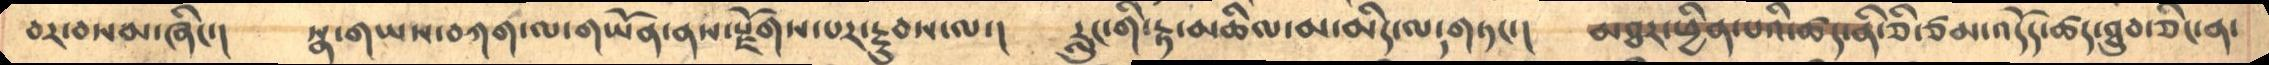བར་བསམ་ཞིང་།     སྣ་གཡས་བཀག་ལ་གཡོན་ནས་རྫོགས་པར་རྔུབས་ལ་།    རླུང་གི་རྟ་མཆིལ་མ་མིད་ལ་གཏང་།    མཐར་ཕྱིན་པའི་ཚད་ནི་ཅི་ཙམ་འདོད་ཚད་ཐུབ་ཅིང་ན་
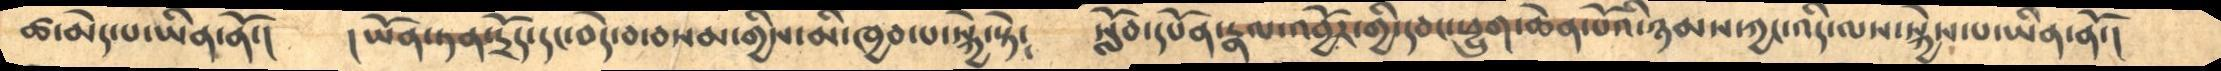ཚ་མེད་པ་ཡིན་ནོ་།     །ཡོན་ཏན་དྲོད་དང་བདེ་བ་བསམ་གྱིས་མི་ཁྱབ་པ་སྐྱེ་སྟེ༴    སློབ་དཔོན་རྣལ་འབྱོར་གྱི་དབང་ཕྱུག་ཆེན་པོའི་ཉམས་ཀྱང་འདི་ལས་སྐྱེས་པ་ཡིན་ནོ་།
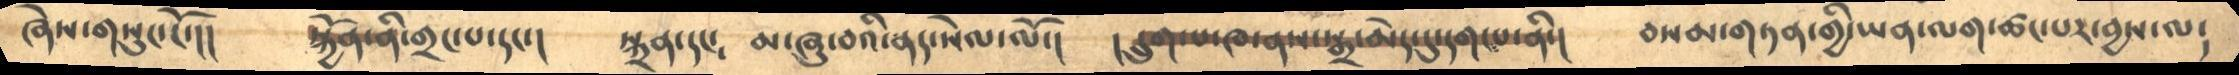ཞེས་གསུང་ངོ་།།      སྐྱོན་ནི་གྲང་པ་དང་།     སྐྲན་དང༴   མ་ཞུ་བའི་ནད་སེལ་ལོ་།     །དྲུག་པ་ཁ་ནས་སྒྲ་མེད་དུ་དག་པ་ནི་།    བསམ་གཏན་གྱི་ཡན་ལག་ཚང་པར་བྱས་ལ༴
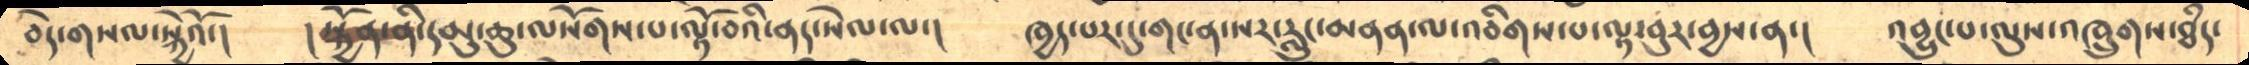བདེ་གསལ་སྐྱེའོ་།    །སྐྱོན་ནི་དམུ་ཆུ་ལསོགས་པ་ལྟོ་བའི་ནད་སེལ་ལ་།     ཁྱད་པར་དུ་གང་ན་སར་རླུང་མནན་ལ་འབིགས་པ་ལྟ་བུར་བྱས་ན་།    འབྱུང་པ་ལུས་འཁྲུགས་ཐཾད་
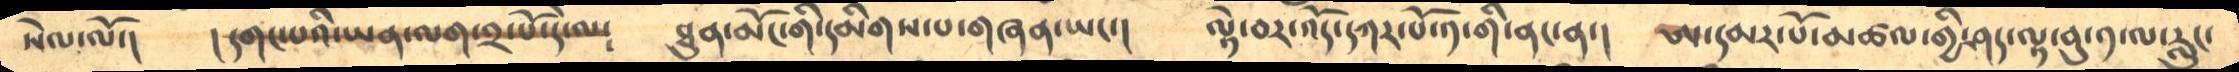སེལ་ལོ་།   །དགང་པའི་ཡན་ལག་༢་པོ་དེ་ལ༴     ཐུན་མོང་གི་དམིགས་པ་གཞན་ཡང་།    ལྟེ་བར་འོད་དཀར་པོ་༡་གི་ནང་ན་།   ཨ་དམར་པོ་མཚལ་གྱི་ཤད་ལྟ་བུ་༡་ལ་རླུང་
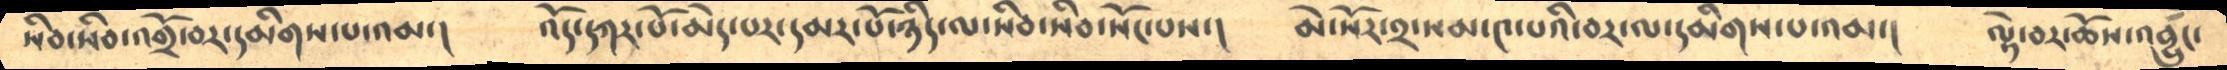སིབ་སིབ་འགྲོ་བར་དམིགས་པ་འམ་།    འོད་དཀར་པོ་མེད་པར་དམར་པོ་ཉིད་ལ་སིབ་སིབ་སོང་པས་།    མེ་སོར་༢་སམ་༤་པའི་བར་ལ་དམིགས་པ་འམ་།   ལྟེ་བར་ཆོས་འབྱུང་
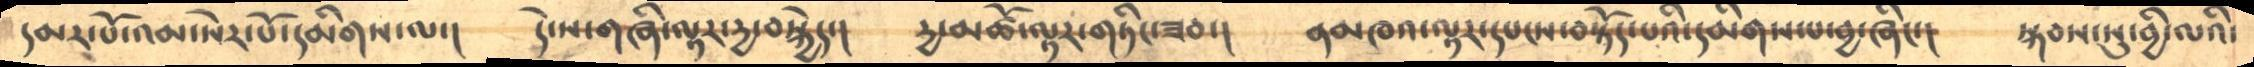དམར་པོ་འམ་སེར་པོ་དམིགས་ལ་།    དེ་ས་གཞི་ལྟར་དྱ་བསྐྱེད་།    དྱ་མཚོ་ལྟར་གཏིང་ཟབ་།    ནམཁའ་ལྟར་དཔངས་བསྟོད་པའི་དམིགས་པ་བྱ་ཞིང་།    སྐབས་སུ་བྱི་ལའི་
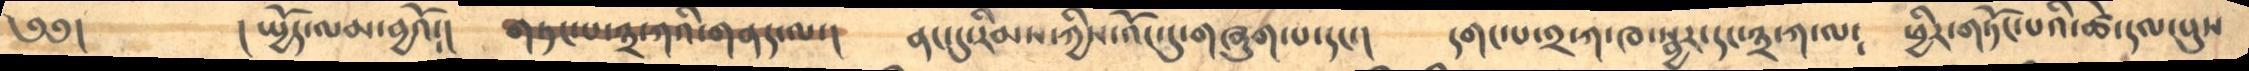༄༅།      །སྤྱོད་ལམ་བྱའོ༴།     གཏང་པ་༣་ཀའི་གནད་ལ་།    ནང་དུ་རིམས་ཀྱིས་འོང་དུ་གཞུག་པ་དང་།   དགང་པ་༢་ཀ་ཁ་སྦྱར་དང་༣་ཀ་ལ༴    ཕྱིར་གཏོང་པའི་ཚེ་དལ་པུས་
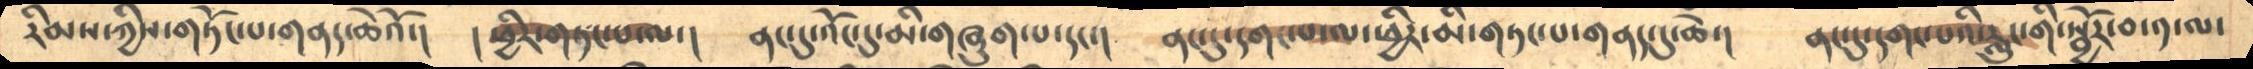རིམས་ཀྱིས་གཏོང་པ་གནད་ཆེའོ་།    ཕྱིར་གཏང་པ་ལ་།    ནང་དུ་འོང་དུ་མི་གཞུག་པ་དང་།    ནང་དུ་དགང་པ་ལ་ཕྱིར་མི་གཏང་པ་གནད་དུ་ཆེ་།    ནང་དུ་དགང་པའི་རླུང་གི་སྦྱོར་བ་༡་ལ་
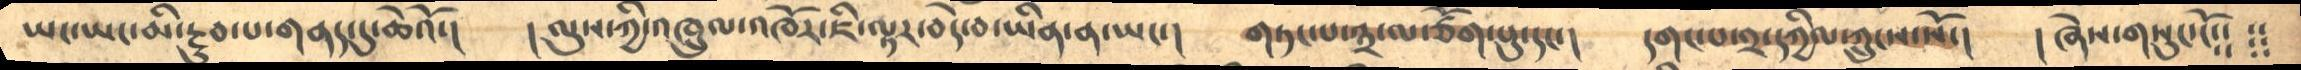ཡང་ཡང་མི་རྔུབ་པ་གནད་དུ་ཆེའོ་།     །ལུས་ཀྱི་འཁྲུལ་འཁོར་ཇི་ལྟར་བདེ་བ་ཡིན་ན་ཡང་།    གཏང་པ་༣་ལ་ཙོག་པུ་དང་།    དགང་པ་༢་དཀྱིལ་ཀྲུངས་སོ་།    །ཞེས་གསུང་ངོ༴༴ ༴༴
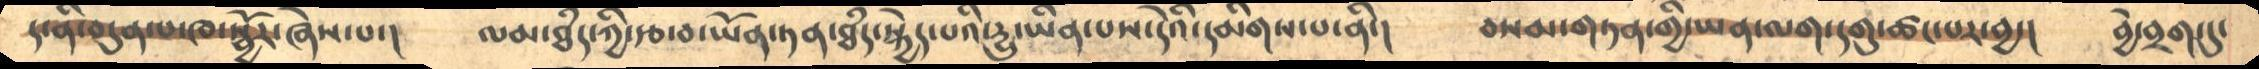ད་ནི་བདུན་པ་ཁ་སྦྱོར་ཞེས་པ་།    ལམ་ཐཾད་ཀྱི་རྩ་བ་ཡོན་ཏན་ཐཾད་སྐྱེད་པའི་དྱུ་ཡིན་པས་དེའི་དམིགས་པ་ནི་།    བསམ་གཏན་གྱི་ཡན་ལག་དགུ་ཚང་པར་བྱ་།   བྱེ་བྲག་དུ་
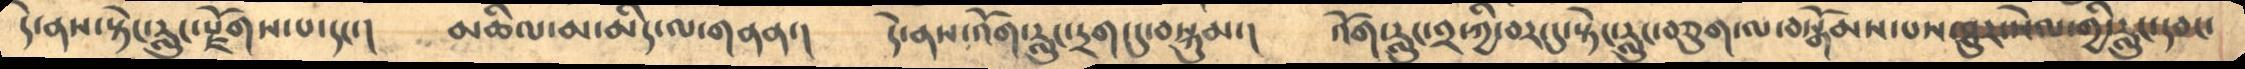དེ་ནས་སྟེང་རླུང་རྫོགས་པ་དང་།      མཆིལ་མ་མིད་ལ་གནན་།   དེ་ནས་འོག་རླུང་དྲག་དུ་བསྐུམ་།   འོག་རླུང་༢་ཀྱི་བར་དུ་སྟེང་རླུང་བཅུག་ལ་བསྒོམས་པས་ཐུར་སེལ་གྱི་རླུང་དབང་
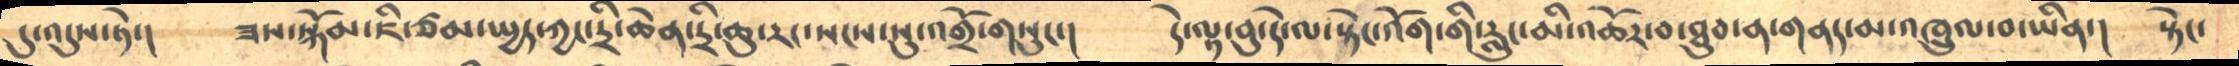དུ་འདུས་ཏེ་།    ཟས་སྐོམ་ཇི་ཙམ་སྤྱད་ཀྱང་དྲི་ཆེན་དྲི་ཆུ་རང་སངས་སུ་འགྲོ་གསུང་།   དེ་ལྟ་བུ་དེ་ལ་སྟེང་འོག་གི་རླུང་མི་འཆོར་བ་ཐུབ་ན་གནད་མ་འཁྲུལ་བ་ཡིན་།   སྟེང་
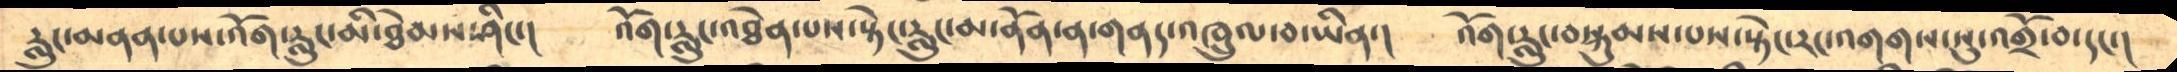རླུང་མནན་པས་འོག་རླུང་མི་ཐེམས་ཤིང་།     འོག་རླུང་འཐེན་པས་སྟེང་རླུང་མ་ནོན་ན་གནད་འཁྲུལ་བ་ཡིན་།    འོག་རླུང་བསྐུམས་པས་སྟེང་རང་འགགས་སུ་འགྲོ་བ་དང་།
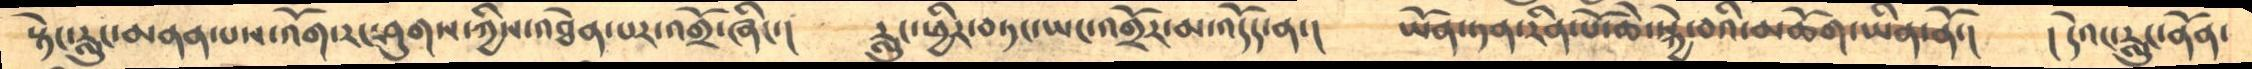སྟེང་རླུང་མནན་པས་འོག་རང་ཤུགས་ཀྱིས་འཐེན་པར་འགྲོ་ཞིང་།      རླུང་ཕྱིར་བཏང་ཡང་འགྲོར་མ་འདོད་ན་།     ཡོན་ཏན་རིན་པོ་ཆེ་སྐྱེ་བའི་མཆོག་ཡིན་ནོ་།    །དེའང་རླུང་ནོན་
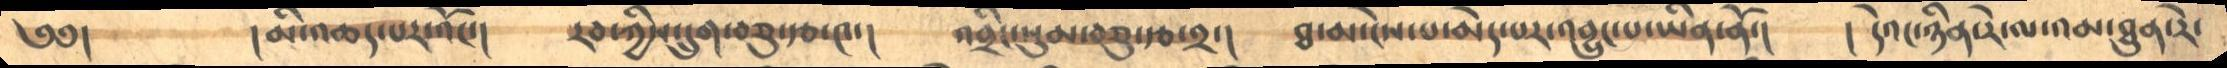༄༅།      །མི་འཆད་པར་འོང་།     རབ་ཀྱིས་དྲུག་བཅུ་རྩ་༤་།    འབྲིང་སུམ་བཅུ་རྩ་༢་།    ཐ་མ་ངེས་པ་མེད་པར་འབྱུང་བ་ཡིན་ནོ་།    ། དེའང་ཉིན་རེ་ལ་འམ་ཐུན་རེ་
